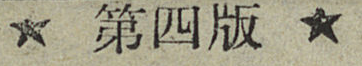★ 第四版 ★
